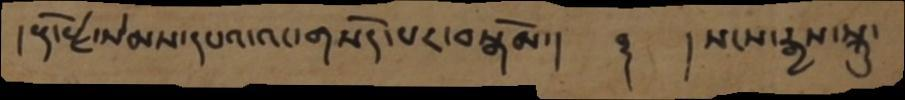།རྡོ་རྗེ་སེམས་དཔའ་འང་གསོད་པར་བསྒོམ་།   ༈  །སངས་རྒྱས་སྐུ་
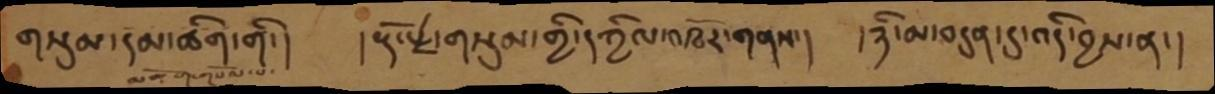གསུམ་དམ་ཚིག་གི་།   །རྡོ་རྗེ་གསུམ་གྱི་དཀྱིལ་འཁོར་གནས་།   །ཉི་མ་བདུན་དུ་འདི་བྱས་ན་།
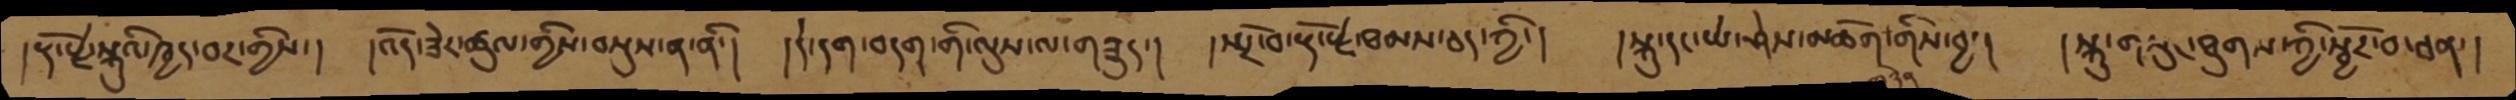།རྡོ་རྗེ་སྐུའི་ཁྱད་པར་གྱིས་།  །འོད་ཟེར་ཚུལ་གྱིས་བསྡུས་ན་ནི་།  །དེ་དག་བདག་གི་ལུས་ལ་གཟུད་།  །སྤྲོ་བ་རྡོ་རྗེ་ཐམས་ཅད་ཀྱི་།   །སྐུ་དང་ཡེ་ཤེས་མཆོག་གིས་བྱ་།   །སྐུ་གསུང་ཐུགས་ཀྱི་སྦྱོར་བ་ཅན་།
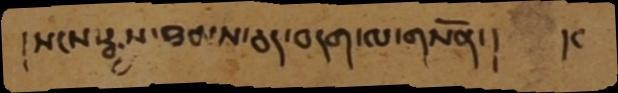།སངས་རྒྱས་ཐམས་ཅད་བདག་ལ་གསོན་།   །ང
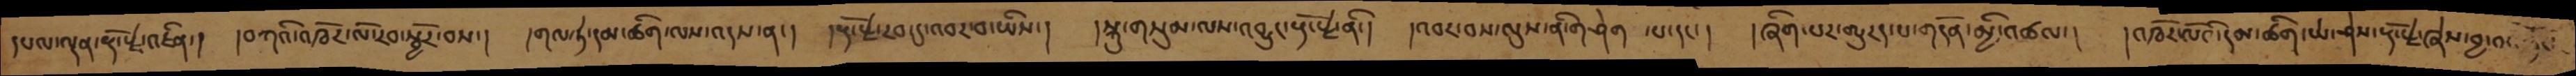དཔལ་ལྡན་རྡོ་རྗེ་འཛིན་།  །བཀའི་འཁོར་ལོ་རབ་སྦྱོར་བས་།  །གལ་ཏེ་དམ་ཚིག་ལས་འདས་ན་།  །རྡོ་རྗེ་རབ་དུ་འབར་བ་ཡིས་།  །སྐུ་གསུམ་ལས་བྱུང་རྡོ་རྗེ་ནི་།  །འབར་བས་ལུས་ནི་གཤེག  ་པ་དང་།  །ཞིག་པར་གྱུརད་པ་གདོན་མྱི་འཚལ་།  །འཁོར་ལོའི་དམ་ཚིག་ཡེ་ཤེས་རྡོ་རྗེ་ཞེས་བྱ་བ་
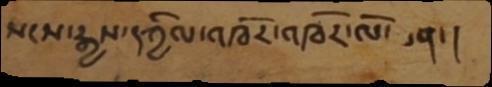སངས་རྒྱས་དཀྱིལ་འཁོར་འཁོར་ལོ་ཅན་།
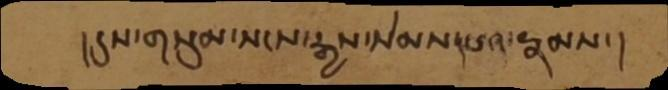།དུས་གསུམ་སངས་རྒྱས་སེམས་དཔའ་རྣམས་།
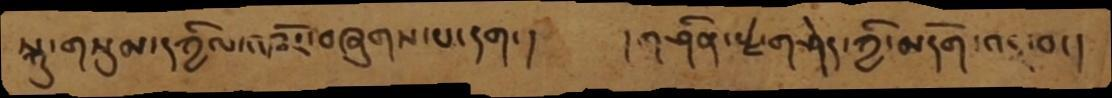སྐུ་གསུམ་དཀྱིལ་འཁོར་བཞུགས་པ་དག་།      །གཤིན་རྗེ་གཤེད་ཀྱི་མདོག་འདྲ་བ་།
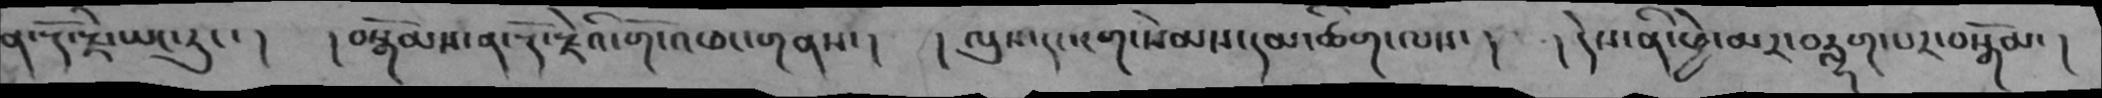ན་རྡོ་རྗེ་ཡང་རུང་།  །བསྒོམས་ན་རྡོ་རྗེའི་གོ་འཕང་གནས་།  །ལུས་དང་ངག་སེམས་དམ་ཚིག་ལས་།  །དེས་ནི་ཕྱེ་མར་བརླག་པར་བསྒོམ་།
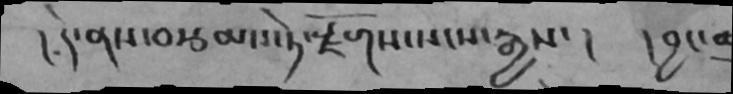།དེ་ནས་བརྩམས་ཏེ་རྫོགས་སངས་རྒྱས་།  །བྱང་ཆུ
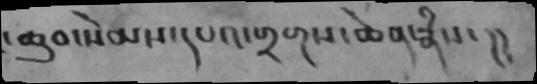་ཆུབ་སེམས་དཔའ་གྲགས་ཆེན་རྣཾས་།།
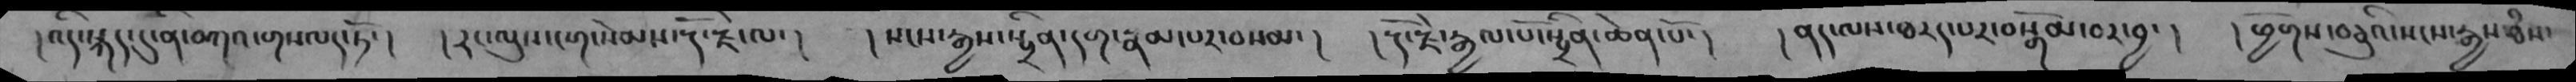།འདི་སྐད་དུ་ནི་བཀའ་གསལད་ཏོ་།  །རང་ལུས་ངག་སེམས་རྡོ་རྗེ་ལ་། །སངས་རྒྱས་སྤྲིན་དག་རྣམ་པར་བསམ་།  །རྡོ་རྗེ་རྒྱལ་པོ་སྤྲིན་ཆེན་པོ་།  །ནད་ལས་ཐརད་པར་བསྒོམ་བར་བྱ་།  །ཕྱོགས་བཅུའི་སངས་རྒྱས་ཐཾས་
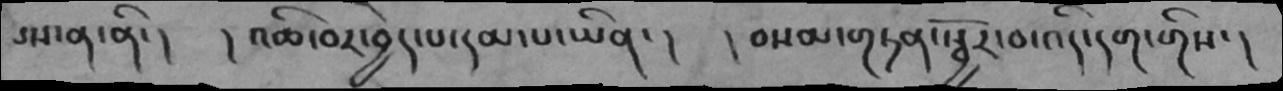པས་ན་ནི་།  །འཆི་བར་བྱེད་པ་དམ་པ་ཡིན་།  །བསམ་གཏན་སྦྱོར་བ་འདི་དག་གིས་།
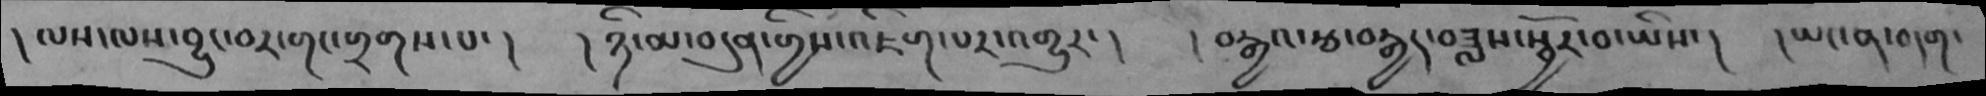། ལས་ལས་བྱུང་བར་གང་གྲགས་པ་།  །ཉི་མ་བདུན་གྱིས་འཇིག་པར་འགྱུར་།  །བརྒྱའ་རྩ་བརྒྱད་བཟླས་སྦྱོར་བ་ཡིས་།  །ཡང་ན་བདག་
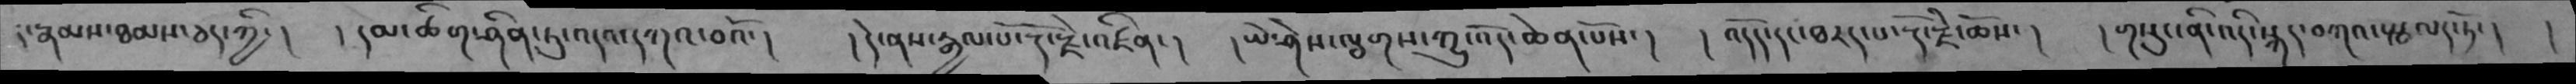ད་རྣམས་ཐམས་ཅད་ཀྱི་།  །དམ་ཚིག་ཤིན་ཏུ་འདའ་དཀའ་བའོ་།   །དེ་ནས་རྒྱལ་པོ་རྡོ་རྗེ་འཛིན་།  །ཡེ་ཤེས་ལྕགས་ཀྱུ་འོད་ཆེན་པོས་།  །འདོད་དང་ཐརད་པ་རྡོ་རྗེ་ཆོས་།  །གསུང་ནི་འདི་སྐད་བཀའ་སྩལད་ཏོ་།  །
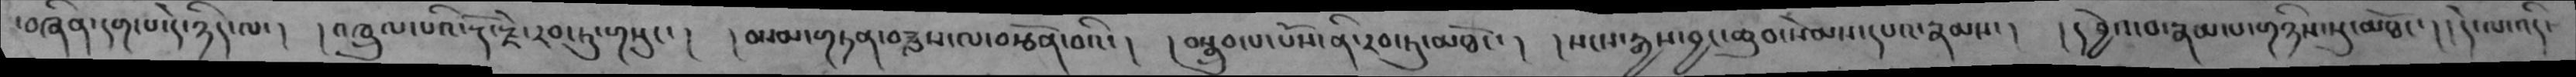་བཞིན་དག་པ་དེ་ཉིད་ལ་།  །འཁྲུལ་པའི་རྡོ་རྗེ་རབ་ཏུ་གསུང་།  །བསམ་གཏན་བཟླས་ལ་བརྩོན་བའི་།  །བསྒྲུབ་པ་པོས་ནི་རབ་ཏུ་མཐོང་།  །སངས་རྒྱས་བྱང་ཆུབ་སེམས་དཔའ་རྣམས་།  །དབྱེའ་བ་རྣམ་པ་གཉིས་སུ་མཐོང་།  །དེ་ལ་འདི་
